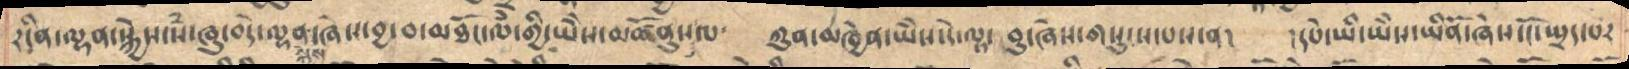རངིན་ལྷན་སྐྱེས་སཾ་ཞུ་བདེ་ལྷན་སྐྱེས་ཞེས་བྱ་བ་མཐོང་ལཾ་གྱི་ཡེེས་མཚོནུསལ༴   ཀུན་མཁྱེན་ཡེེས་དེ་ལྟ་བུ་ཞེས་གསུངས་པས་ན།  །དཔེ་ཡི་ཡེེས་ཡིནོ་ཞེས་ངོ་སྤྲད་པར
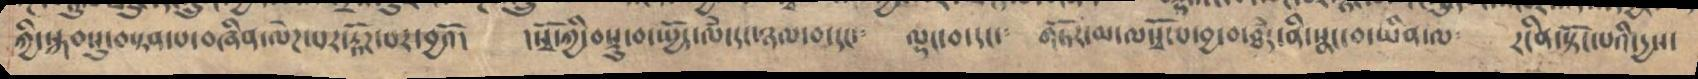ཀྱི་སྐབསུ་བསྟན་པ་བཞིན་ལེཌ་པར་རྟོཌ་པར་བྱའོ། །སྭོ་ཀྱི་བསྡུ་བ་སྤྱོད་ལཾ་དང་ཉལ་བ་དང་༴ ལྡང་བ་དང་༴ གཏོར་མ་ལསྭོ་པ་བྱ་བ་ཐཾད་ནི་སྣང་བ་ཡིན་ལ༴ རངིན་སྟོང་པའི་དྱས་
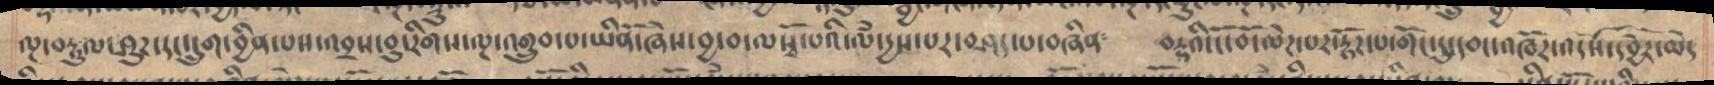ལྔ་བརྟུལ་ཤུཌ་དང་དྲུག་བྱིན་པས་འབྲས་བུ་རིགས་ལྔ་འགྲུབ་པ་ཡིནོ་ཞེས་བྱ་བ་ལསྭོ་པའི་ལཾ་དྱས་པར་བཤད་པ་བཞིན༴ བརྡའི་ངོ་བོ་ལེཌ་པར་རྟོཌ་པ་གོང་དུ་དབང་འཁོར་འདསོ་དབྱེར་མེད
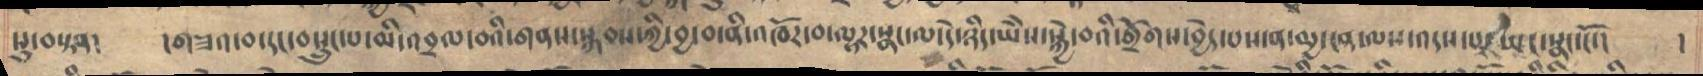སུ་བསྟབ། །གཟའ་བ་དང་བསྲུང་པ་མི་འབྲལ་བའི་གནས་སྐབས་ཀྱི་བྱ་བ་ནི་འཁོར་བ་ལྟར་སྣང་ལ་དེ་ཉིད་ཡཻས་སྐྱེ་བའི་གྲོགས་བྱེད་པས་ན་མྱ་ངན་ལས་འདས་པར་ཡང་སྣང་ངོ་། །
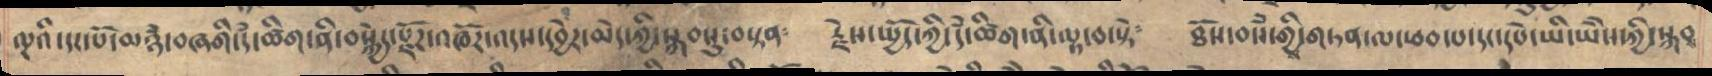ལྔའི་དང་པོ་མཉཾ་བཞགི་དཾ་ཚིག་ནི་བསྐྱེད་སྫོཌ་འཁཽར་འདས་དབྱེར་མེད་ཀྱི་སྐབསུ་བསྟན༴ རྗེས་སྤྱོད་ཀྱི་དཾ་ཚིག་ནི་ལྟ་བ་སྟེ༴ ཐོས་བསཾ་གྱི་གཏན་ལ་ཕབ་པ་དང་དཔེ་ཡི་ཡཻས་ཀྱི་སྐབ
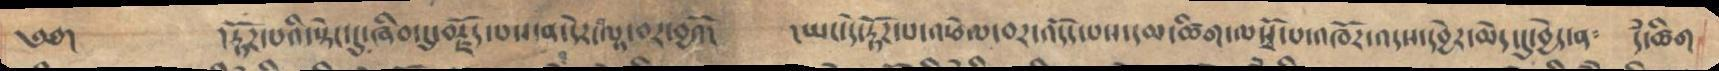༄༅།   །རྟོཌ་པའི་སྟེང་དུ་ཞིབ་དུ་བརྗོད་པས་ན་དེར་བལྟ་བར་བྱའོ།   །ཡང་དེ་རྟོཌ་པ་འཕེལ་བར་འདོད་པས་དམ་ཚིག་ལསྭོ་པ་འཁོར་འདས་དབྱེར་མེད་དུ་བྱེད་ན༴   དཾ་ཚིག
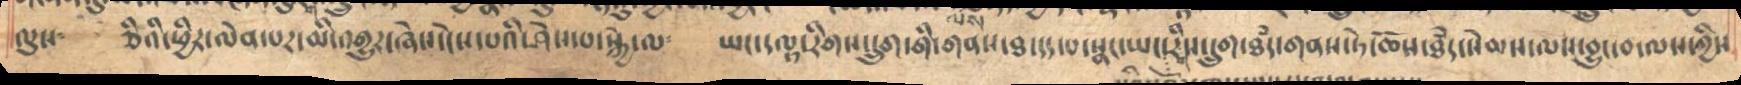ལུས   ཅིའི་ཕྱིར་ལེན་པར་མི་འགྱུར་ཞེས་ངེས་པའི་ཤེས་པ་སྐྱེ་ལ༴   ཡང་དལྟ་རིགས་དྲུག་གི་གནས་ཐ་དད་པ་སྣང་ཡང་རིགས་དྲུག་ཐཾད་གནས་ཏེ་ཆོས་ཐཾད་སེམས་ལས་བྱུང་བ་ལས་ཀྱིས
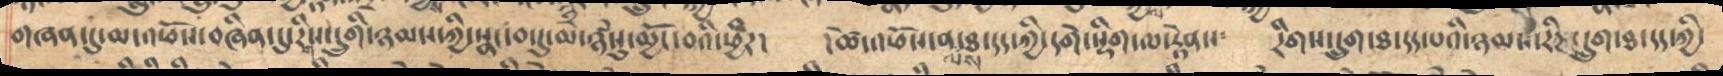གཞན་དུ་ལ་འཕོས་བཞིན་དུ་རིགས་དྲུགི་ཉམས་ཀྱི་སྣང་བ་དུ་མ་ཉཾསུ་མྱོང་བའི་ཕྱིར།  །ཚེ་འཕོས་ན་ལས་ཐ་དད་ཀྱི་དགེ་སྡིག་ལ་རྟེནས༴   རིགས་དྲུག་ཐ་དད་པའི་ཉམས་རིཌ་དྲུག་ཐ་དད་ཀྱི་
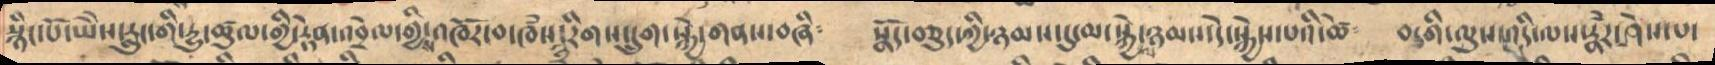སྙིང་པོ་ཡེེས་རླུང་གི་དྱུ་ཚུལ་གྱི་རྟེན་འབྲེལ་གྱིས་འཁོར་བ་ཁཾས་༣་རིགས་དྲུག་སྐྱེ་གནས་བཞི༴   སྣོད་བཅུད་ཀྱི་ཉམས་དུ་མ་སྐྱེ་ལ་ཉམས་དེ་སྐྱེས་པའི་ཚེ༴   བདགི་ལུས་འདི་ལས་རྣཾར་ཤེས་པ་
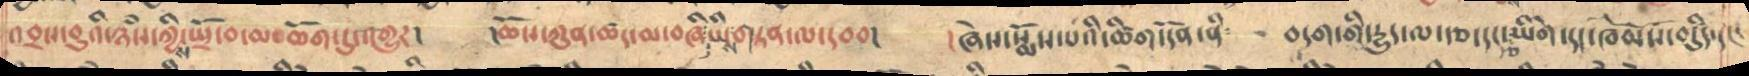འབྲས་བུའི་ཉཾས་ཀྱིས་སྤྲོ་བ་མཆོག་དུ་འགྱུར།   །ཆོས་ཀུན་ཚད་མ་བཞི་ཡིས་གཏན་ལ་དབབ།  །ཞེས་སྨོས་པའི་ཚིག་དོན་ནི   བདག་གི་དྱུད་ལ་རྩ་དང་རྩ་ཡིགེ་དང་ཁམས་བདིུད་
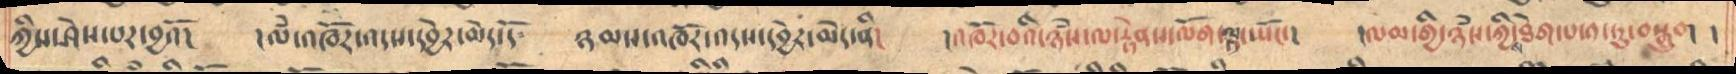ཀྱིས་ཤེས་པར་བྱའོ།   །ལཾ་འཁོར་འདས་དབྱེར་མེད་དོ   ཉམས་འཁོར་འདས་དབྱེར་མེད་ནི།   །འཁོར་བའི་ཉཾས་ལ་རྟེནས་ལོག་ལྟ་ཡོང་།  །ལམ་གྱི་ཉཾས་ཀྱིས་ཐེག་པ་༡་ཏུ་བསྒྲུབ།  །
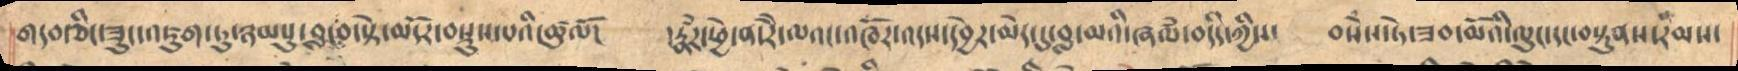གདབ་ཅིང་ཟུང་འཇུག་ཏུ་ཉམསུ་བླ་བ་སྟེ་མདོར་བསྡུས་པའི་ཚུལོ། །རྣཾར་ཕྱེ་ན་རཻ་ལའང་འཁོར་འདས་དབྱེར་མེད་དུ་བླ་མའི་ཞལཾ་བདིད་ཀྱིས་ བསཾས་ཏེ་ཟབ་མོའི་ལུང་དང་བསྟུནས་རིམས་
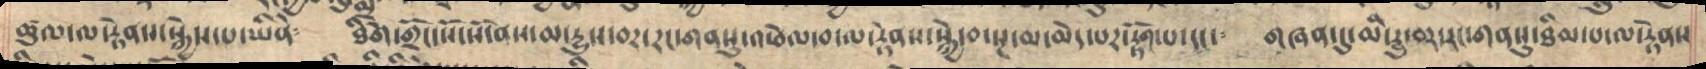ཚུལ་ལ་རྟེནས་སྐྱེས་པ་ཡིནོ༴ ཐིེག་གྲོང་སོ་སོ་ནས་མ་རྱུས་བར་རང་གནསུ་འཕེལ་བ་ལ་རྟེནས་སྐྱེ་བ་སྔ་མ་མེད་པར་རྟོག་པ་དང་༴ གཞན་དུ་མི་རྱུ་བར་རང་གནསུ་ཐིམ་པ་ལ་རྟེནས
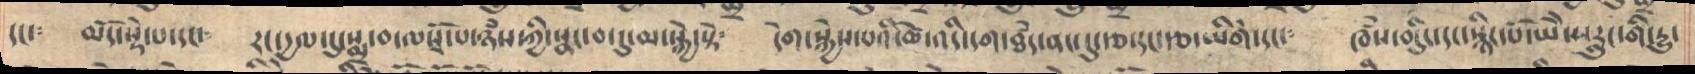དང་༴ མདོ་སྡེ་པ་དང་༴ རང་དྱལ་དུ་སྨྲ་བ་ལསྭོ་པ་ཉཾས་ཀྱི་སྣང་བ་དུ་མ་སྐྱེ་སྟེ༴ དེག་སྐྱེས་པའི་ཚེ་འདི་དག་ཐཾད་ནང་དུ་རྩ་དང་རྩ་ཡིགེ་དང་༴ ཁཾས་བདིུད་དང་སྙིང་པོ་ཡཻས་རླུང་གི་རྱུ་
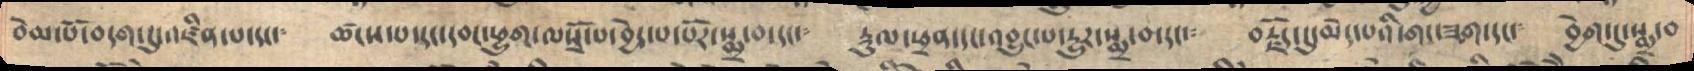བེམ་པོ་བདག་དུ་འཛིན་པ་དང་༴ ཚངས་པ་དང་དབང་ཕྱུག་ལསྭོ་པ་བྱེད་པ་པོར་སྨར་བ་དང་༴ རྡུལ་ཕྲན་དང་འབྱུང་པ་རྱུར་སྨྲ་བ་དང་༴ བརྗོད་དུ་མེད་པའི་གང་ཟག་དང་༴ བྱེག་དུ་སྨྲ་བ
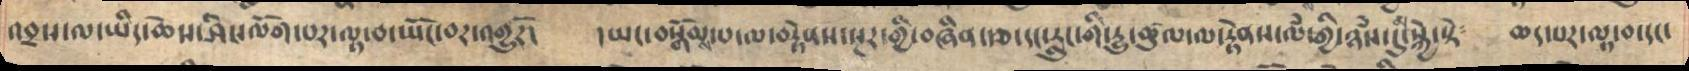འབྲས་ལ་ཡིད་ཆེས་ཤིང་ལོག་པར་ལྟ་བ་སྤོང་བར་འགྱུརོ།    །ཡང་བསྒོམས་པ་ལ་བརྟེནས་སྔར་གྱི་བཞིན་རྩ་དང་རླུང་གི་དྱུ་ཚུལ་ལ་རྟེནས་ལཾ་གྱི་ཉཾས་དུ་མ་སྐྱེ་སྟེ༴   ཆད་པར་ལྟ་བ་དང་
